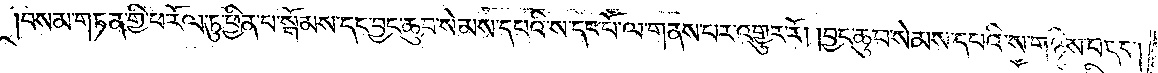བསམ་གཏན་གྱི་ཕ་རོལ་ཏུ་ཕྱིན་པ་སྒོམས་དང་བྱང་ཆུབ་སེམས་དཔའི་ས་དང་པོ་ལ་གནས་པར་འགྱུར་རོ། །བྱང་ཆུབ་སེམས་དཔའི་ས་གཉིས་པ་དང༌།
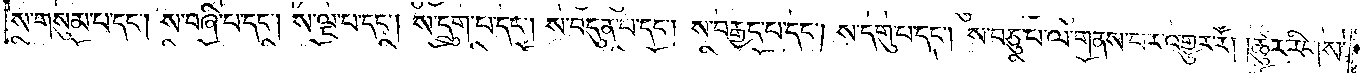ས་གསུམ་པ་དང༌། ས་བཞི་པ་དང༌། ས་ལྔ་པ་དང༌། ས་དྲུག་པ་དང༌། ས་བདུན་པ་དང༌། ས་བརྒྱད་པ་དང༌། ས་དགུ་པ་དང༌། ས་བཅུ་པ་ལ་གནས་པར་འགྱུར་རོ། །ཚུར་རིགས་
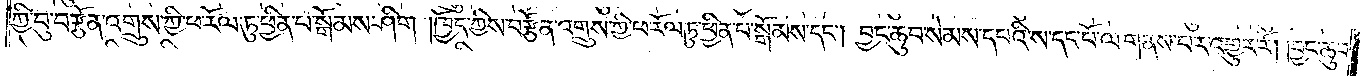ཀྱི་བུ་བརྩོན་འགྲུས་ཀྱི་ཕ་རོལ་ཏུ་ཕྱིན་པ་སྒོམས་ཤིག །ཁྱོད་ཀྱིས་བརྩོན་འགྲུས་ཀྱི་ཕ་རོལ་ཏུ་ཕྱིན་པ་སྒོམས་དང༌། བྱང་ཆུབ་སེམས་དཔའི་ས་དང་པོ་ལ་གནས་པར་འགྱུར་རོ། །བྱང་ཆུབ་
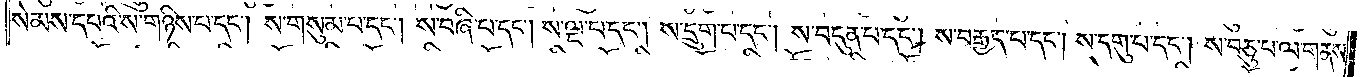སེམས་དཔའི་ས་གཉིས་པ་དང༌། ས་གསུམ་པ་དང༌། ས་བཞི་པ་དང༌། ས་ལྔ་པ་དང༌། ས་དྲུག་པ་དང༌། ས་བདུན་པ་དང༌། ས་བརྒྱད་པ་དང༌། ས་དགུ་པ་དང༌། ས་བཅུ་པ་ལ་གནས་
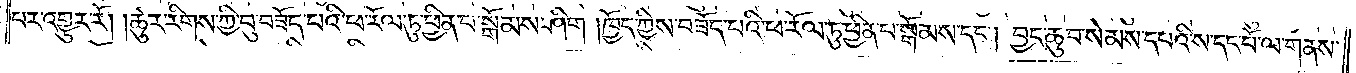པར་འགྱུར་རོ། །ཚུར་རིགས་ཀྱི་བུ་བཟོད་པའི་ཕ་རོལ་ཏུ་ཕྱིན་པ་སྒོམས་ཤིག །ཁྱོད་ཀྱིས་བཟོད་པའི་ཕ་རོལ་ཏུ་ཕྱིན་པ་སྒོམས་དང༌། བྱང་ཆུབ་སེམས་དཔའི་ས་དང་པོ་ལ་གནས་
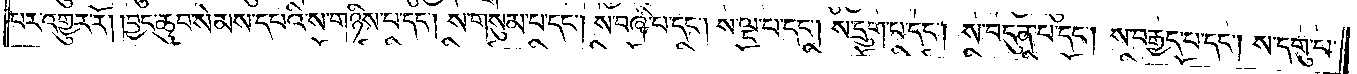པར་འགྱུར་རོ། །བྱང་ཆུབ་སེམས་དཔའི་ས་གཉིས་པ་དང༌། ས་གསུམ་པ་དང༌། ས་བཞི་པ་དང༌། ས་ལྔ་པ་དང༌། ས་དྲུག་པ་དང༌། ས་བདུན་པ་དང༌། ས་བརྒྱད་པ་དང༌། ས་དགུ་པ་
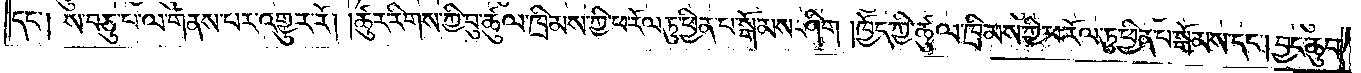དང༌། ས་བཅུ་པ་ལ་གནས་པར་འགྱུར་རོ། །ཚུར་རིགས་ཀྱི་བུ་ཚུལ་ཁྲིམས་ཀྱི་ཕ་རོལ་ཏུ་ཕྱིན་པ་སྒོམས་ཤིག །ཁྱོད་ཀྱིས་ཚུལ་ཁྲིམས་ཀྱི་ཕ་རོལ་ཏུ་ཕྱིན་པ་སྒོམས་དང༌། བྱང་ཆུབ་
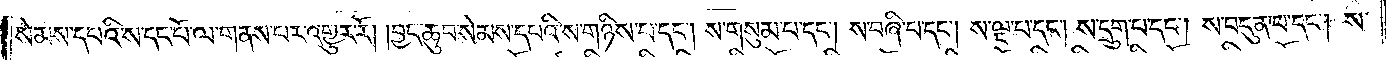སེམས་དཔའི་ས་དང་པོ་ལ་གནས་པར་འགྱུར་རོ། །བྱང་ཆུབ་སེམས་དཔའི་ས་གཉིས་པ་དང༌། ས་གསུམ་པ་དང༌། ས་བཞི་པ་དང༌། ས་ལྔ་པ་དང༌། ས་དྲུག་པ་དང༌། ས་བདུན་པ་དང༌། ས་
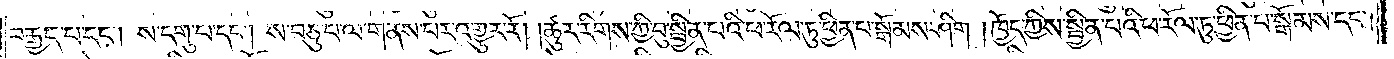བརྒྱད་པ་དང༌། ས་དགུ་པ་དང༌། ས་བཅུ་པ་ལ་གནས་པར་འགྱུར་རོ། །ཚུར་རིགས་ཀྱི་བུ་སྦྱིན་པའི་ཕ་རོལ་ཏུ་ཕྱིན་པ་སྒོམས་ཤིག །ཁྱོད་ཀྱིས་སྦྱིན་པའི་ཕ་རོལ་ཏུ་ཕྱིན་པ་སྒོམས་དང༌།
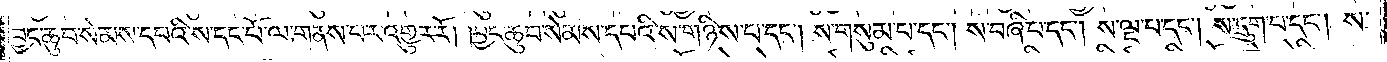བྱང་ཆུབ་སེམས་དཔའི་ས་དང་པོ་ལ་གནས་པར་འགྱུར་རོ། །བྱང་ཆུབ་སེམས་དཔའི་ས་གཉིས་པ་དང༌། ས་གསུམ་པ་དང་། ས་བཞི་པ་དང༌། ས་ལྔ་པ་དང༌། ས་དྲུག་པ་དང༌། ས་
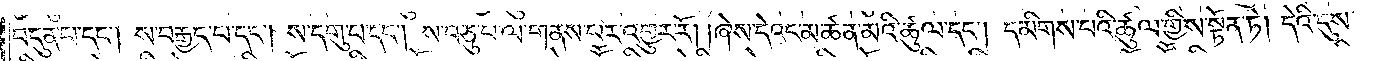བདུན་པ་དང༌། ས་བརྒྱད་པ་དང༌། ས་དགུ་པ་དང༌། ས་བཅུ་པ་ལ་གནས་པར་འགྱུར་རོ། །ཞེས་དེའང་མཚན་མའི་ཚུལ་དང༌། དམིགས་པའི་ཚུལ་གྱིས་སྟོན་ཏེ། དེའི་དུས་
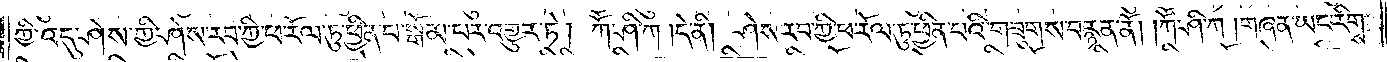ཀྱི་འདུ་ཤེས་ཀྱིས་ཤེས་རབ་ཀྱི་ཕ་རོལ་ཏུ་ཕྱིན་པ་སྒོམ་པར་འགྱུར་ཏེ། ཀཽ་ཤི་ཀ། དེ་ནི། ཤེས་རབ་ཀྱི་ཕ་རོལ་ཏུ་ཕྱིན་པའི་གཟུགས་བརྙན་ནོ། །ཀཽ་ཤི་ཀ། གཞན་ཡང་རིགས་
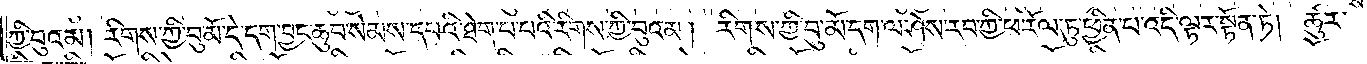ཀྱི་བུའམ། རིགས་ཀྱི་བུ་མོ་དེ་དག་བྱང་ཆུབ་སེམས་དཔའི་ཐེག་པ་པའི་རིགས་ཀྱི་བུའམ། རིགས་ཀྱི་བུ་མོ་དག་ལ་ཤེས་རབ་ཀྱི་ཕ་རོལ་ཏུ་ཕྱིན་པ་འདི་ལྟར་སྟོན་ཏེ། ཚུར་
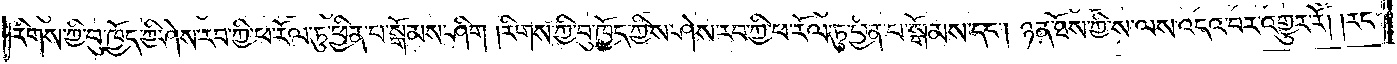རིགས་ཀྱི་བུ་ཁྱོད་ཀྱིས་ཤེས་རབ་ཀྱི་ཕ་རོལ་ཏུ་ཕྱིན་པ་སྒོམས་ཤིག །རིགས་ཀྱི་བུ་ཁྱོད་ཀྱིས་ཤེས་རབ་ཀྱི་ཕ་རོལ་ཏུ་ཕྱིན་པ་སྒོམས་དང༌། ཉན་ཐོས་ཀྱིས་ལས་འདའ་བར་འགྱུར་རོ། །རང་
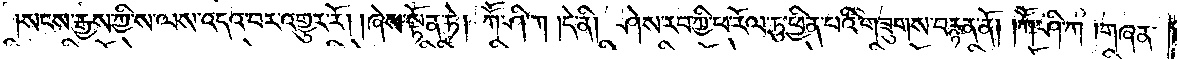སངས་རྒྱས་ཀྱི་ས་ལས་འདའ་བར་འགྱུར་རོ། །ཞེས་སྟོན་ཏེ། ཀཽ་ཤི་ཀ། དེ་ནི། ཤེས་རབ་ཀྱི་ཕ་རོལ་ཏུ་ཕྱིན་པའི་གཟུགས་བརྙན་ནོ། །ཀཽ་ཤི་ཀ། གཞན་
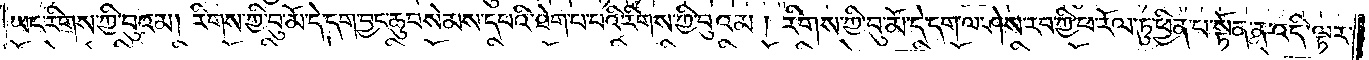ཡང་རིགས་ཀྱི་བུའམ། རིགས་ཀྱི་བུ་མོ་དེ་དག་བྱང་ཆུབ་སེམས་དཔའི་ཐེག་པ་པའི་རིགས་ཀྱི་བུའམ། རིགས་ཀྱི་བུ་མོ་དེ་དག་ལ་ཤེས་རབ་ཀྱི་ཕ་རོལ་ཏུ་ཕྱིན་པ་སྟོན་ན་འདི་ལྟར་
